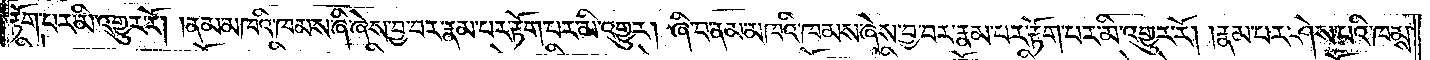རྟོག་པར་མི་འགྱུར་རོ། །ནམ་མཁའི་ཁམས་ཞི་ཞེས་བྱ་བར་རྣམ་པར་རྟོག་པར་མི་འགྱུར། ཞི་བ་ནམ་མཁའི་ཁམས་ཞེས་བྱ་བར་རྣམ་པར་རྟོག་པར་མི་འགྱུར་རོ། །རྣམ་པར་ཤེས་པའི་ཁམས་
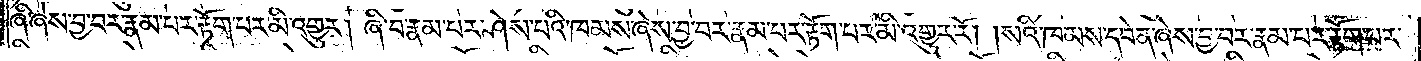ཞི་ཞེས་བྱ་བར་རྣམ་པར་རྟོག་པར་མི་འགྱུར། ཞི་བ་རྣམ་པར་ཤེས་པའི་ཁམས་ཞེས་བྱ་བར་རྣམ་པར་རྟོག་པར་མི་འགྱུར་རོ། །སའི་ཁམས་དབེན་ཞེས་བྱ་བར་རྣམ་པར་རྟོག་པར་
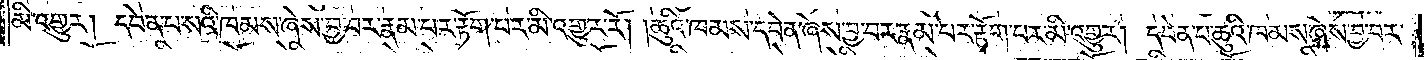མི་འགྱུར། དབེན་པ་སའི་ཁམས་ཞེས་བྱ་བར་རྣམ་པར་རྟོག་པར་མི་འགྱུར་རོ། །ཆུའི་ཁམས་དབེན་ཞེས་བྱ་བར་རྣམ་པར་རྟོག་པར་མི་འགྱུར། དབེན་པ་ཆུའི་ཁམས་ཞེས་བྱ་བར་
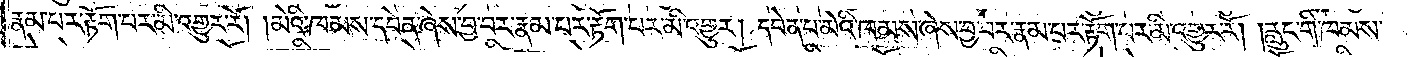རྣམ་པར་རྟོག་པར་མི་འགྱུར་རོ། །མེའི་ཁམས་དབེན་ཞེས་བྱ་བར་རྣམ་པར་རྟོག་པར་མི་འགྱུར། དབེན་པ་མེའི་ཁམས་ཞེས་བྱ་བར་རྣམ་པར་རྟོག་པར་མི་འགྱུར་རོ། །རླུང་གི་ཁམས་
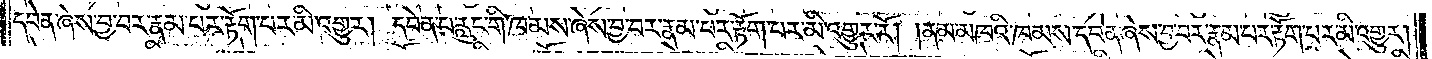དབེན་ཞེས་བྱ་བར་རྣམ་པར་རྟོག་པར་མི་འགྱུར། དབེན་པ་རླུང་གི་ཁམས་ཞེས་བྱ་བར་རྣམ་པར་རྟོག་པར་མི་འགྱུར་རོ། །ནམ་མཁའི་ཁམས་དབེན་ཞེས་བྱ་བར་རྣམ་པར་རྟོག་པར་མི་འགྱུར།
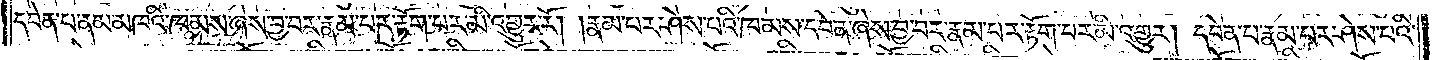དབེན་པ་ནམ་མཁའི་ཁམས་ཞེས་བྱ་བར་རྣམ་པར་རྟོག་པར་མི་འགྱུར་རོ། །རྣམ་པར་ཤེས་པའི་ཁམས་དབེན་ཞེས་བྱ་བར་རྣམ་པར་རྟོག་པར་མི་འགྱུར། དབེན་པ་རྣམ་པར་ཤེས་པའི་
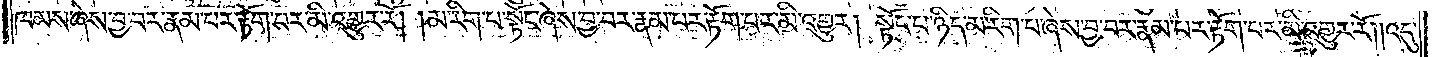ཁམས་ཞེས་བྱ་བར་རྣམ་པར་རྟོག་པར་མི་འགྱུར་རོ། །མ་རིག་པ་སྟོང་ཞེས་བྱ་བར་རྣམ་པར་རྟོག་པར་མི་འགྱུར། སྟོང་པ་ཉིད་མ་རིག་པ་ཞེས་བྱ་བར་རྣམ་པར་རྟོག་པར་མི་འགྱུར་རོ། །འདུ་
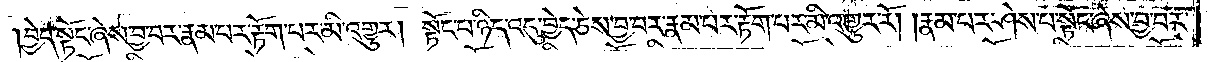བྱེད་སྟོང་ཞེས་བྱ་བར་རྣམ་པར་རྟོག་པར་མི་འགྱུར། སྟོང་པ་ཉིད་འདུ་བྱེད་ཅེས་བྱ་བར་རྣམ་པར་རྟོག་པར་མི་འགྱུར་རོ། །རྣམ་པར་ཤེས་པ་སྟོང་ཞེས་བྱ་བར་
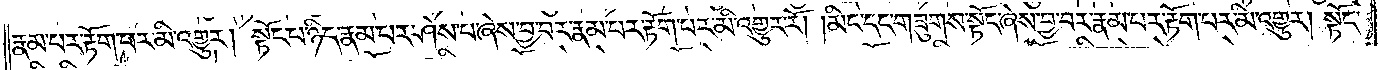རྣམ་པར་རྟོག་པར་མི་འགྱུར་སྟོང་པ་ཉིད་རྣམ་པར་ཤེས་པ་ཞེས་བྱ་བར་རྣམ་པར་རྟོག་པར་མི་འགྱུར་རོ། །མིང་དང་གཟུགས་སྟོང་ཞེས་བྱ་བར་རྣམ་པར་རྟོག་པར་མི་འགྱུར། སྟོང་
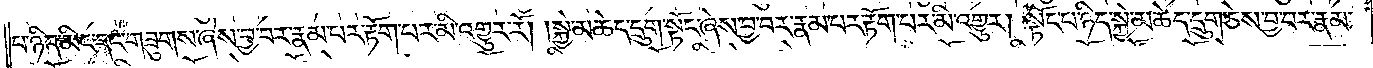པ་ཉིད་མིང་དང་གཟུགས་ཞེས་བྱ་བར་རྣམ་པར་རྟོག་པར་མི་འགྱུར་རོ། །སྐྱེ་མཆེད་དྲུག་སྟོང་ཞེས་བྱ་བར་རྣམ་པར་རྟོག་པར་མི་འགྱུར། སྟོང་པ་ཉིད་སྐྱེ་མཆེད་དྲུག་ཅེས་བྱ་བར་རྣམ་
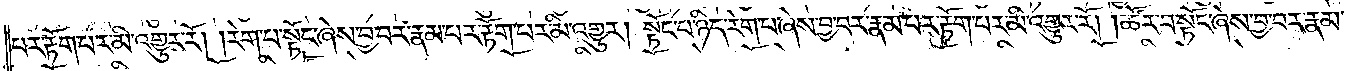པར་རྟོག་པར་མི་འགྱུར་རོ། །རེག་པ་སྟོང་ཞེས་བྱ་བར་རྣམ་པར་རྟོག་པར་མི་འགྱུར། སྟོང་པ་ཉིད་རེག་པ་ཞེས་བྱ་བར་རྣམ་པར་རྟོག་པར་མི་འགྱུར་རོ། །ཚོར་བ་སྟོང་ཞེས་བྱ་བར་རྣམ་
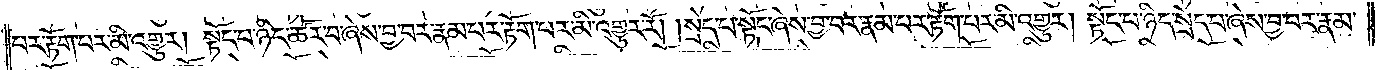པར་རྟོག་པར་མི་འགྱུར་པ། སྟོང་པ་ཉིད་ཚོར་བ་ཞེས་བྱ་བར་རྣམ་པར་རྟོག་པར་མི་འགྱུར་རོ། །སྲེད་པ་སྟོང་ཞེས་བྱ་བར་རྣམ་པར་རྟོག་པར་མི་འགྱུར། སྟོང་པ་ཉིད་སྲེད་པ་ཞེས་བྱ་བར་རྣམ་
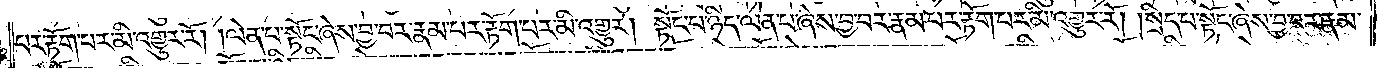པར་རྟོག་པར་མི་འགྱུར་རོ། །ལེན་པ་སྟོང་ཞེས་བྱ་བར་རྣམ་པར་རྟོག་པར་མི་འགྱུར། སྟོང་པ་ཉིད་ལེན་པ་ཞེས་བྱ་བར་རྣམ་པར་རྟོག་པར་མི་འགྱུར་རོ། །སྲིད་པ་སྟོང་ཞེས་བྱ་བར་རྣམ་
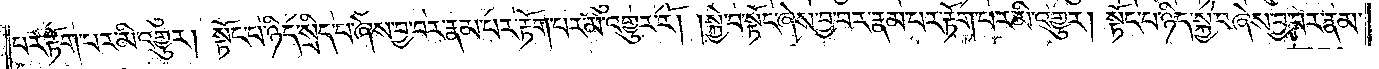པར་རྟོག་པར་མི་འགྱུར། སྟོང་པ་ཉིད་སྲིད་པ་ཞེས་བྱ་བར་རྣམ་པར་རྟོག་པར་མི་འགྱུར་རོ། །སྐྱེ་བ་སྟོང་ཞེས་བྱ་བར་རྣམ་པར་རྟོག་པར་མི་འགྱུར། སྟོང་པ་ཉིད་སྐྱེ་བ་ཞེས་བྱ་བར་རྣམ་
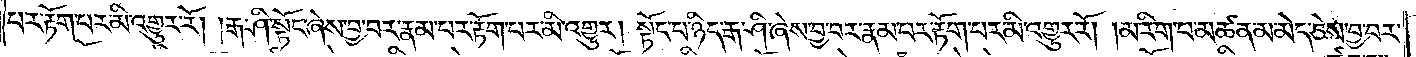པར་རྟོག་པར་མི་འགྱུར་རོ། །རྒ་ཤི་སྟོང་ཞེས་བྱ་བར་རྣམ་པར་རྟོག་པར་མི་འགྱུར། སྟོང་པ་ཉིད་རྒ་ཤི་ཞེས་བྱ་བར་རྣམ་པར་རྟོག་པར་མི་འགྱུར་རོ། །མ་རིག་པ་མཚན་མ་མེད་ཅེས་བྱ་བར་
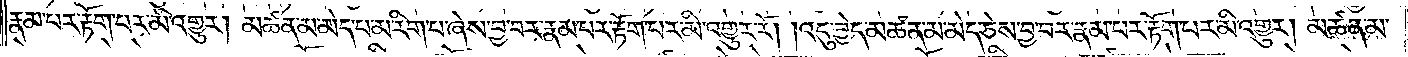རྣམ་པར་རྟོག་པར་མི་འགྱུར། མཚན་མ་མེད་པ་མ་རིག་པ་ཞེས་བྱ་བར་རྣམ་པར་རྟོག་པར་མི་འགྱུར་རོ། །འདུ་བྱེད་མཚན་མ་མེད་ཅེས་བྱ་བར་རྣམ་པར་རྟོག་པར་མི་འགྱུར། མཚན་མ་
